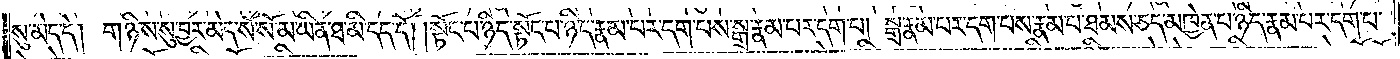སུ་མེད་དེ། གཉིས་སུ་བྱར་མེད་སོ་སོ་མ་ཡིན་ཐ་མི་དད་དོ། །སྟོང་པ་ཉིད་སྟོང་པ་ཉིད་རྣམ་པར་དག་པས་སྒྲ་རྣམ་པར་དག་པ། སྒྲ་རྣམ་པར་དག་པས་རྣམ་པ་ཐམས་ཅད་མཁྱེན་པ་ཉིད་རྣམ་པར་དག་པ་
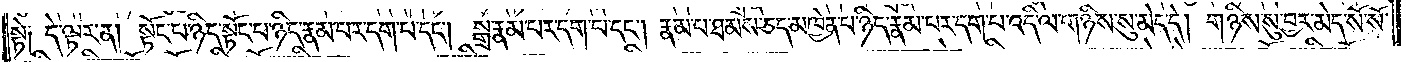སྟེ། དེ་ལྟར་ན། སྟོང་པ་ཉིད་སྟོང་པ་ཉིད་རྣམ་པར་དག་པ་དང༌། སྒྲ་རྣམ་པར་དག་པ་དང༌། རྣམ་པ་ཐམས་ཅད་མཁྱེན་པ་ཉིད་རྣམ་པར་དག་པ་འདི་ལ་གཉིས་སུ་མེད་དེ། གཉིས་སུ་བྱར་མེད་སོ་སོ་
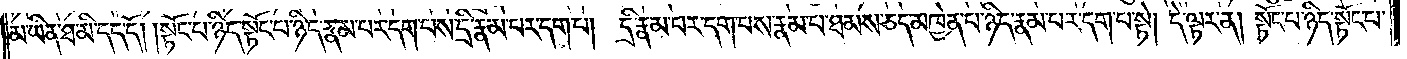མ་ཡིན་ཐ་མི་དད་དོ། །སྟོང་པ་ཉིད་སྟོང་པ་ཉིད་རྣམ་པར་དག་པས་དྲི་རྣམ་པར་དག་པ། དྲི་རྣམ་པར་དག་པས་རྣམ་པ་ཐམས་ཅད་མཁྱེན་པ་ཉིད་རྣམ་པར་དག་པ་སྟེ། དེ་ལྟར་ན། སྟོང་པ་ཉིད་སྟོང་པ་
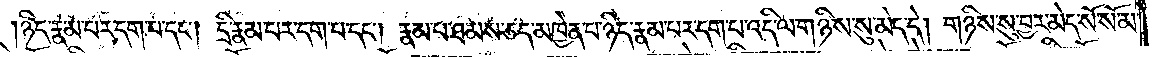ཉིད་རྣམ་པར་དག་པ་དང༌། དྲི་རྣམ་པར་དག་པ་དང༌། རྣམ་པ་ཐམས་ཅད་མཁྱེན་པ་ཉིད་རྣམ་པར་དག་པ་འདི་ལ་གཉིས་སུ་མེད་དེ། གཉིས་སུ་བྱར་མེད་སོ་སོ་མ་
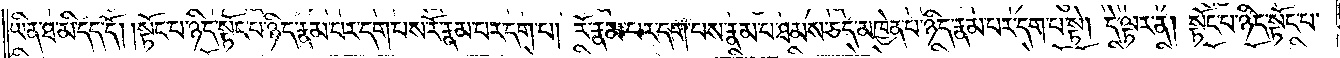ཡིན་ཐ་མི་དད་དོ། །སྟོང་པ་ཉིད་སྟོང་པ་ཉིད་རྣམ་པར་དག་པས་རོ་རྣམ་པར་དག་པ། རོ་རྣམ་པར་དག་པས་རྣམ་པ་ཐམས་ཅད་མཁྱེན་པ་ཉིད་རྣམ་པར་དག་པ་སྟེ། དེ་ལྟར་ན། སྟོང་པ་ཉིད་སྟོང་པ་
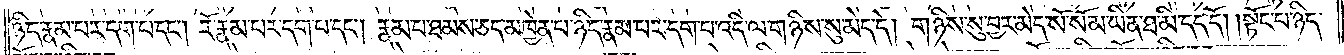ཉིད་རྣམ་པར་དག་པ་དང༌། རོ་རྣམ་པར་དག་པ་དང༌། རྣམ་པ་ཐམས་ཅད་མཁྱེན་པ་ཉིད་རྣམ་པར་དག་པ་འདི་ལ་གཉིས་སུ་མེད་དེ། གཉིས་སུ་བྱར་མེད་སོ་སོ་མ་ཡིན་ཐ་མི་དད་དོ། །སྟོང་པ་ཉིད་
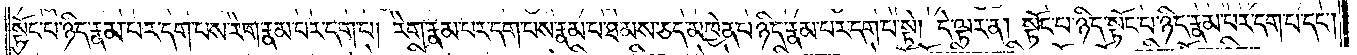སྟོང་པ་ཉིད་རྣམ་པར་དག་པས་རེག་རྣམ་པར་དག་པ། རེག་རྣམ་པར་དག་པས་རྣམ་པ་ཐམས་ཅད་མཁྱེན་པ་ཉིད་རྣམ་པར་དག་པ་སྟེ། དེ་ལྟར་ན། སྟོང་པ་ཉིད་སྟོང་པ་ཉིད་རྣམ་པར་དག་པ་དང༌།
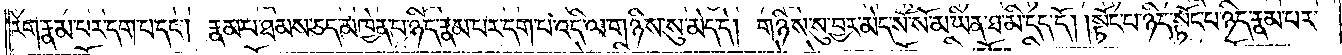རེག་རྣམ་པར་དག་པ་དང༌། རྣམ་པ་ཐམས་ཅད་མཁྱེན་པ་ཉིད་རྣམ་པར་དག་པ་འདི་ལ་གཉིས་སུ་མེད་དེ། གཉིས་སུ་བྱར་མེད་སོ་སོ་མ་ཡིན་ཐ་མི་དད་དོ། །སྟོང་པ་ཉིད་སྟོང་པ་ཉིད་རྣམ་པར་
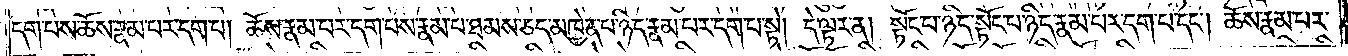དག་པས་ཆོས་རྣམ་པར་དག་པ། ཆོས་རྣམ་པར་དག་པས་རྣམ་པ་ཐམས་ཅད་མཁྱེན་པ་ཉིད་རྣམ་པར་དག་པ་སྟེ། དེ་ལྟར་ན། སྟོང་པ་ཉིད་སྟོང་པ་ཉིད་རྣམ་པར་དག་པ་དང༌། ཆོས་རྣམ་པར་
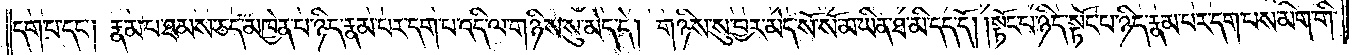དག་པ་དང༌༑ རྣམ་པ་ཐམས་ཅད་མཁྱེན་པ་ཉིད་རྣམ་པར་དག་པ་འདི་ལ་གཉིས་སུ་མེད་དེ། གཉིས་སུ་བྱར་མེད་སོ་སོ་མ་ཡིན་ཐ་མི་དད་དོ། །སྟོང་པ་ཉིད་སྟོང་པ་ཉིད་རྣམ་པར་དག་པས་མིག་གི་
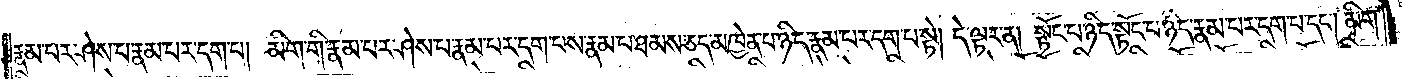རྣམ་པར་ཤེས་པ་རྣམ་པར་དག་པ། མིག་གི་རྣམ་པར་ཤེས་པ་རྣམ་པར་དག་པས་རྣམ་པ་ཐམས་ཅད་མཁྱེན་པ་ཉིད་རྣམ་པར་དག་པ་སྟེ། དེ་ལྟར་ན། སྟོང་པ་ཉིད་སྟོང་པ་ཉིད་རྣམ་པར་དག་པ་དང༌། མིག་
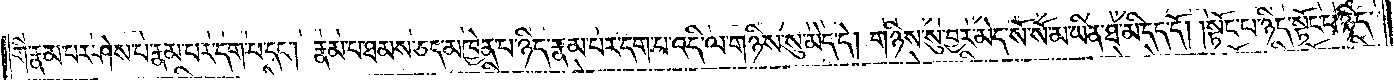གི་རྣམ་པར་ཤེས་པ་རྣམ་པར་དག་པ་དང༌། རྣམ་པ་ཐམས་ཅད་མཁྱེན་པ་ཉིད་རྣམ་པར་དག་པ་འདི་ལ་གཉིས་སུ་མེད་དེ། གཉིས་སུ་བྱར་མེད་སོ་སོ་མ་ཡིན་ཐ་མི་དད་དོ། །སྟོང་པ་ཉིད་སྟོང་པ་ཉིད་
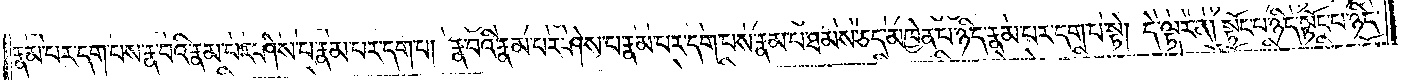རྣམ་པར་དག་པས་རྣ་བའི་རྣམ་པར་ཤེས་པ་རྣམ་པར་དག་པ། རྣ་བའི་རྣམ་པར་ཤེས་པ་རྣམ་པར་དག་པས་རྣམ་པ་ཐམས་ཅད་མཁྱེན་པ་ཉིད་རྣམ་པར་དག་པ་སྟེ། དེ་ལྟར་ན། སྟོང་པ་ཉིད་སྟོང་པ་ཉིད་
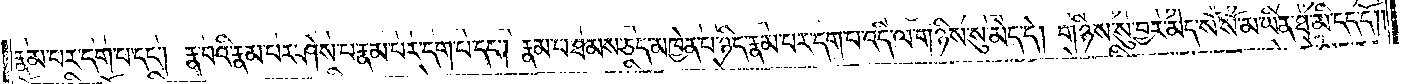རྣམ་པར་དག་པ་དང༌། རྣ་བའི་རྣམ་པར་ཤེས་པ་རྣམ་པར་དག་པ་དང༌། རྣམ་པ་ཐམས་ཅད་མཁྱེན་པ་ཉིད་རྣམ་པར་དག་པ་འདི་ལ་གཉིས་སུ་མེད་དེ། གཉིས་སུ་བྱར་མེད་སོ་སོ་མ་ཡིན་ཐ་མི་དད་དོ། །
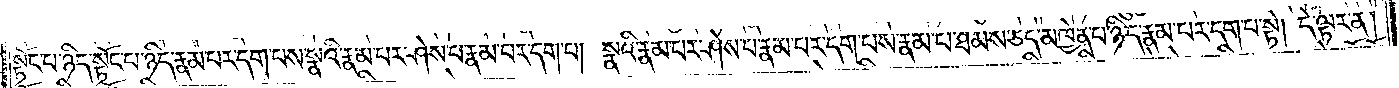སྟོང་པ་ཉིད་སྟོང་པ་ཉིད་རྣམ་པར་དག་པས་སྣའི་རྣམ་པར་ཤེས་པ་རྣམ་པར་དག་པ། སྣའི་རྣམ་པར་ཤེས་པ་རྣམ་པར་དག་པས་རྣམ་པ་ཐམས་ཅད་མཁྱེན་པ་ཉིད་རྣམ་པར་དག་པ་སྟེ། དེ་ལྟར་ན།
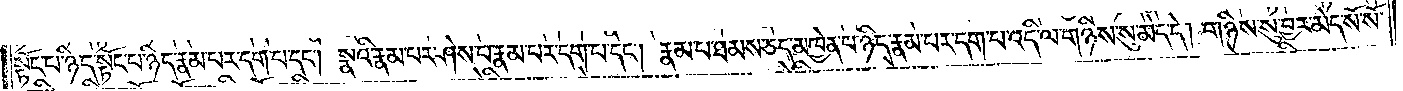སྟོང་པ་ཉིད་སྟོང་པ་ཉིད་རྣམ་པར་དག་པ་དང༌། སྣའི་རྣམ་པར་ཤེས་པ་རྣམ་པར་དག་པ་དང༌། རྣམ་པ་ཐམས་ཅད་མཁྱེན་པ་ཉིད་རྣམ་པར་དག་པ་འདི་ལ་གཉིས་སུ་མེད་དེ། གཉིས་སུ་བྱར་མེད་སོ་སོ་
